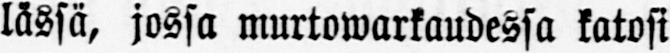lässä, jossa murtowarkaudessa katosi
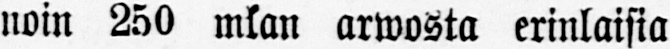noin 250 mkan arwosta erinlaisia
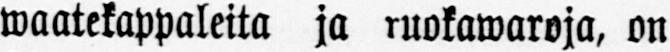waatekappaleita ja ruokawaroja, on
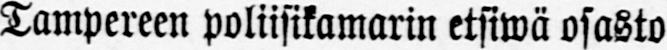Tampereen poliisikamarin etsiwä osasto
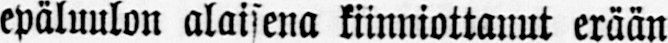epäluulon alaisena kiinniottanut erään
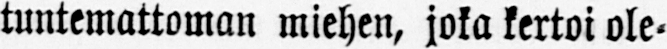tuntemattoman miehen, joka kertoi ole-
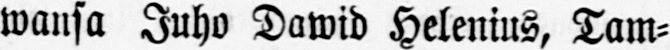wansa Juho Dawid Helenius, Tam-
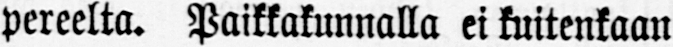pereelta. Paikkakunnalla ei kuitenkaan
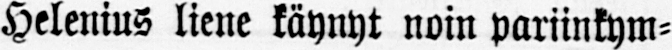Helenius liene käynyt noin pariinkym-
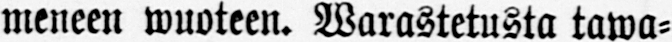meneen wuoteen. Warastetusta tawa-
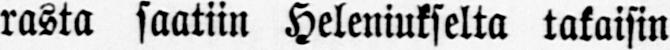rasta saatiin Heleniukselta takaisin
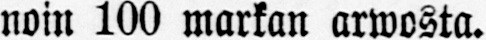noin 100 markan arwosta.
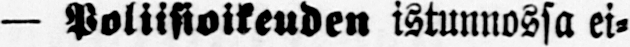— Poliisioikeuden istunnossa ei-
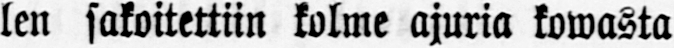len sakoitettiin kolme ajuria kowasta
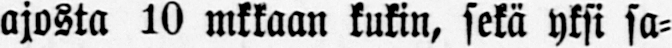ajosta 10 mkkaan kukin, sekä yksi sa-
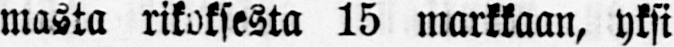masta rikoksesta 15 markkaan, yksi
